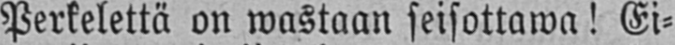Perkelettä on wastaan seisottawa! Ei-
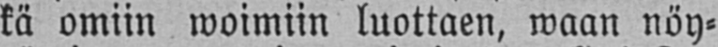kä omiin woimiin luottaen, waan nöy-
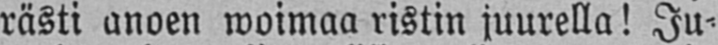rästi anoen woimaa ristin juurella! Ju-
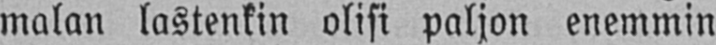malan lastenkin olisi paljon enemmin
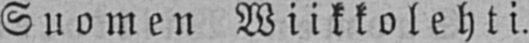Suomen Wiikkolehti.
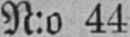N:o 44
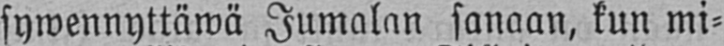sywennyttäwä Jumalan sanaan, kun mi-
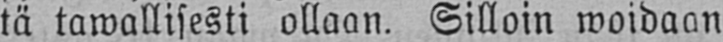tä tawallisesti ollaan. Silloin woidaan
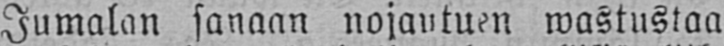Jumalan sanaan nojautuen wastustaa
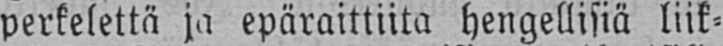perkelettä ja epäraittiita hengellisiä liik-
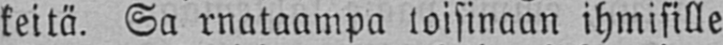keitä. Sa rnataampa toisinaan ihmisille
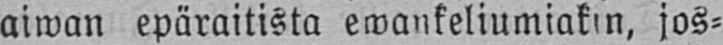aiwan epäraitista ewankeliumiakin, jos-
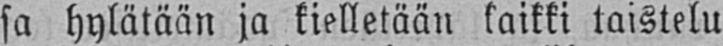sa hylätään ja kielletään kaikki taistelu
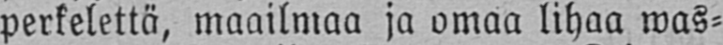perkelettä, maailmaa ja omaa lihaa was-
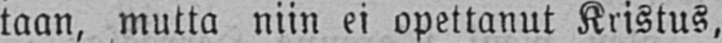taan, mutta niin ei opettanut Kristus,
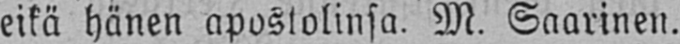eikä hänen apostolinsa. M. Saarinen.
